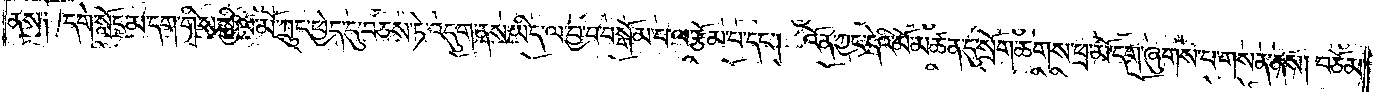ནས། དགེ་སློང་མ་དག་གིས་སྐྱིལ་མོ་ཀྲུང་ཕྱེད་དུ་བཅས་ཏེ་འདུག་ནས་ཡིད་ལ་བྱ་བ་བསྒོམ་པ་ལ་རྩོམ་པ་དང༌། འོན་ཀྱང་དེའི་མོ་མཚན་དུ་སྲོག་ཆགས་ཕྲ་མོ་དག་ཞུགས་པ་གསན་ནས། བཅོམ་
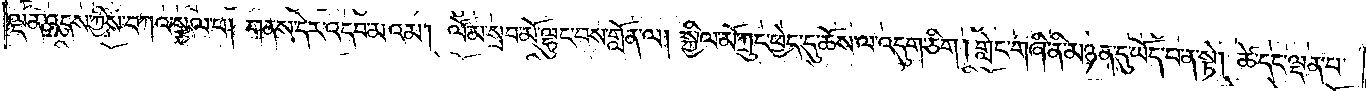ལྡན་འདས་ཀྱིས་བཀའ་སྩལ་པ། གནས་དེར་འདབ་མའམ། ལོ་མ་སྲབ་མོ་ལྷུང་བས་གློན་ལ། སྐྱིལ་མོ་ཀྲུང་ཕྱེད་དུ་ཆོས་ལ་འདུག་ཅིང་།གླེང་གཞི་ནི་མཉན་དུ་ཡོད་པ་ན་སྟེ། ཚེ་དང་ལྡན་པ་
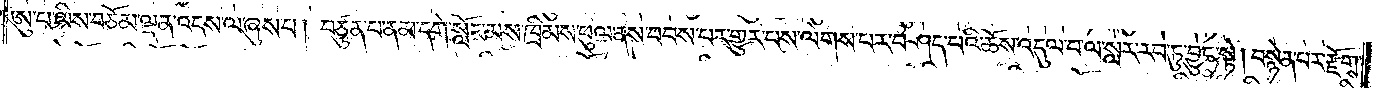ཨུ་པ་ལིས་བཅོམ་ལྡན་འདས་ལ་ཞུས་པ། བཙུན་པ་ནམ་དགེ་སློང་མས་ཁྲིམས་ཕུལ་ནས་བབས་པར་གྱུར་པས་ལེགས་པར་བཤད་པའི་ཆོས་འདུལ་བ་ལ་སླར་རབ་ཏུ་བྱུང་སྟེ། བསྙེན་པར་རྫོགས་
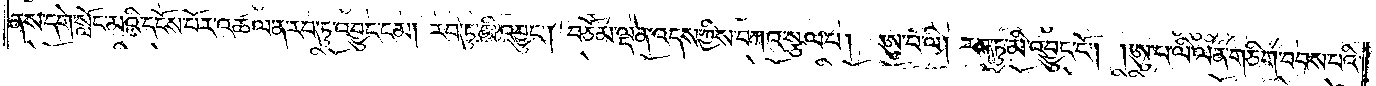ནས་དགེ་སློང་མའི་དངོས་པོར་འཚལ་ན་རབ་ཏུ་འབྱུང་ངམ། རབ་ཏུ་མི་འབྱུང༌། བཅོམ་ལྡན་འདས་ཀྱིས་བཀའ་སྩལ་པ། ཨུ་པ་ལི། རབ་ཏུ་མི་འབྱུང་ངོ༌། །ཨུ་པ་ལི་ལན་གཅིག་བབས་པའི་
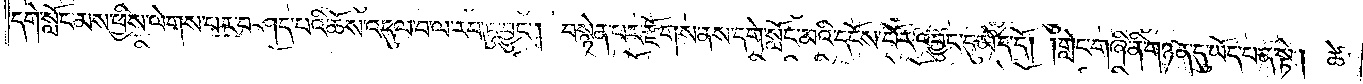དགེ་སློང་མས་ཕྱིས་ལེགས་པར་བཤད་པའི་ཆོས་འདུལ་བ་ལ་རབ་ཏུ་བྱུང༌། བསྙེན་པར་རྫོགས་ནས་དགེ་སློང་མའི་དངོས་པོར་འབྱུང་དུ་མེད་དོ། །གླེང་གཞི་ནི་གཉན་དུ་ཡོད་པ་ན་སྟེ། ཚེ་
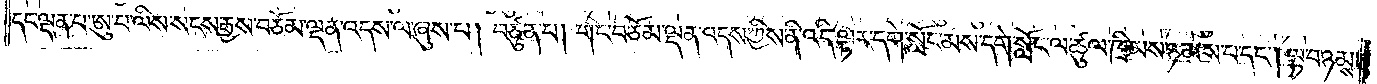དང་ལྡན་པ་ཨུ་པ་ལིས་སངས་རྒྱས་བཅོམ་ལྡན་འདས་ལ་ཞུས་པ། བཙུན་པ། གང་བཅོམ་ལྡན་འདས་ཀྱིས་ནི་འདི་ལྟར་དགེ་སློང་མས་དགེ་སློང་ལ་ཚུལ་ཁྲིམས་ཉམས་པ་དང༌། ལྟ་བ་ཉམས་
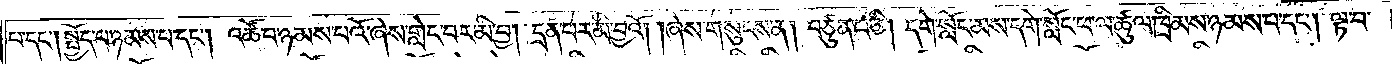པ་དང༌། སྤྱོད་པ་ཉམས་པ་དང༌། འཚོ་བ་ཉམས་པའོ་ཞེས་གླེང་བར་མི་བྱ། དྲན་པར་མི་བྱའོ། །ཞེས་གསུངས་ན། བཙུན་པ་ཅི། དགེ་སློང་མས་དགེ་སློང་ཕ་ལ་ཚུལ་ཁྲིམས་ཉམས་པ་དང༌། ལྟ་བ་
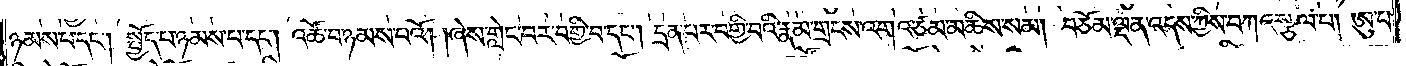ཉམས་པ་དང༌། སྤྱོད་པ་ཉམས་པ་དང༌། འཚོ་བ་ཉམས་པའོ། །ཞེས་གླེང་བར་བགྱི་བ་དང༌། དྲན་པར་བགྱི་བའི་རྣམ་གྲངས་འགའ་ཙམ་མཆིས་སམ། བཅོམ་ལྡན་འདས་ཀྱིས་བཀའ་སྩལ་བ། ཨུ་པ་
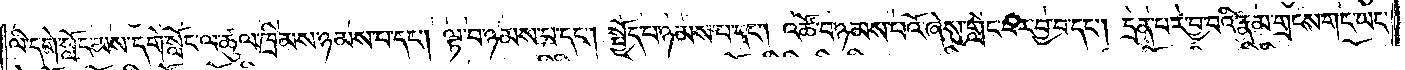ལི་དགེ་སློང་མས་དགེ་སློང་ལ་ཚུལ་ཁྲིམས་ཉམས་པ་དང༌། ལྟ་བ་ཉམས་པ་དང༌། སྤྱོད་པ་ཉམས་པ་དང༌། འཚོ་བ་ཉམས་པའོ་ཞེས་གླེང་བར་བྱ་བ་དང༌། དྲན་པར་བྱ་བའི་རྣམ་གྲངས་གང་ཡང་
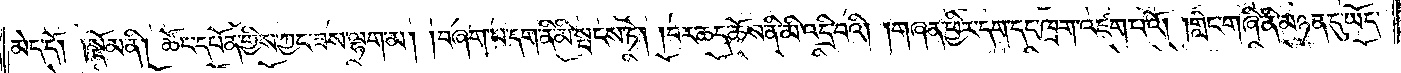མེད་དོ།    །སྡོམ་ནི། ཚོང་དཔོན་གྱིས་ཀྱང་ཟས་ལྷག་མ། །བཞག་པ་དག་ནི་མི་སྤངས་ཏེ། །བར་ཆད་ཆོས་ནི་མི་འདྲི་བའི། །གཞན་ཕྱིར་དག་དང་ཁྲག་འཛག་པའོ། །གླེང་གཞི་ནི་མཉན་དུ་ཡོད་
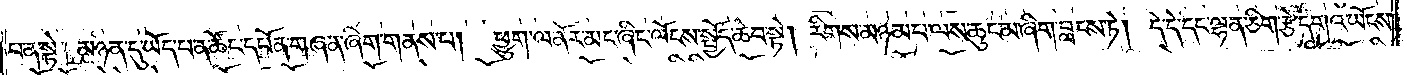པ་ན་སྟེ། མཉན་དུ་ཡོད་པ་ན་ཚོང་དཔོན་གཞན་ཞིག་གནས་པ། ཕྱུག་ལ་ནོར་མང་ཞིང་ལོངས་སྤྱོད་ཆེ་བ་སྟེ། རིགས་མཉམ་པ་ལས་ཆུང་མ་ཞིག་བླངས་ཏེ། དེ་དེ་དང་ལྷན་ཅིག་རྩེ་དགའ་ཡོངས་
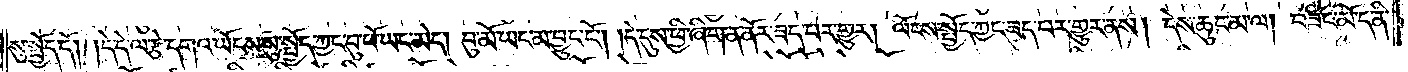སུ་སྤྱོད་དོ། །དེ་དེ་ལ་རྩེ་དགའ་ཡོངས་སུ་སྤྱོད་ཀྱང་བུ་ཕོ་ཡང་མེད། བུ་མོ་ཡང་མ་བྱུང་ངོ༌། །དེ་དུས་ཕྱི་ཞིག་ན་ནོར་ཟད་པར་གྱུར། ལོངས་སྤྱོད་ཀྱང་ཟད་པར་གྱུར་ནས། དེས་ཆུང་མ་ལ། བཟང་མོ་ད་ནི་
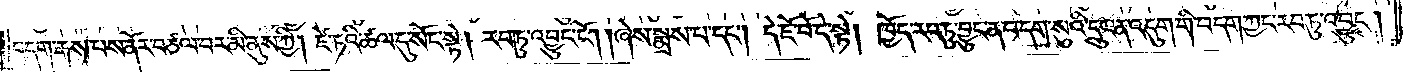བདག་རྒས་པས་ནོར་བཙལ་བར་མི་ནུས་ཀྱི། ཛེ་ཏའི་ཚལ་དུ་སོང་སྟེ། རབ་ཏུ་འབྱུང་ངོ༌། །ཞེས་སྨྲས་པ་དང༌། དེ་ཇོ་བོ་དེ་སྟེ། ཁྱོད་རབ་ཏུ་བྱུང་ན་བདག་སུའི་དྲུང་ན་འདུག་གི་བདག་ཀྱང་རབ་ཏུ་འབྱུང༌།
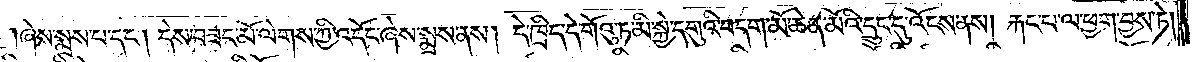ཞེས་སྨྲས་པ་དང༌། དེས་བཟང་མོ་ལེགས་ཀྱི་འདོང་ཞེས་སྨྲས་ནས། དེ་ཁྲིད་དེ་གོའུ་ཏ་མི་སྐྱེ་དགུའི་བདག་མོ་ཆེན་མོའི་དྲུང་དུ་འོངས་ནས། རྐང་པ་ལ་ཕྱག་བྱས་ཏེ།
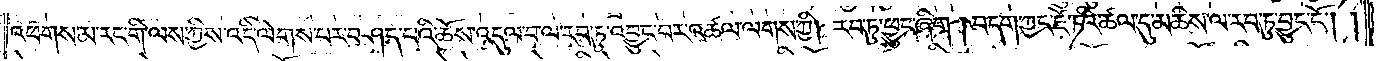འཕགས་མ་རང་གི་ལས་ཀྱིས་འདི་ལེགས་པར་བཤད་པའི་ཆོས་འདུལ་བ་ལ་རབ་ཏུ་འབྱུང་བར་འཚལ་ལགས་ཀྱི། རབ་ཏུ་ཕྱུང་ཞིག །བདག་ཀྱང་ཛེ་ཏའི་ཚལ་དུ་མཆིས་ལ་རབ་ཏུ་བྱུང་ངོ༌། །
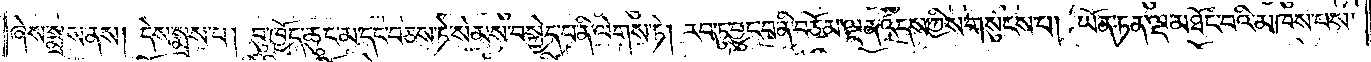ཞེས་སྨྲས་ནས། དེས་སྨྲས་པ། བུ་ཁྱོད་ཆུང་མ་དང་བཅས་ཏེ་སེམས་བསྐྱེད་པ་ནི་ལེགས་ཏེ། རབ་ཏུ་བྱུང་བ་ནི་བཅོམ་ལྡན་འདས་ཀྱིས་གསུངས་པ། ཡོན་ཏན་ལྔ་མཐོང་བའི་མཁས་པས་
